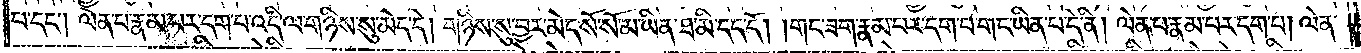པ་དང༌། ལེན་པ་རྣམ་པར་དག་པ་འདི་ལ་གཉིས་སུ་མེད་དེ། གཉིས་སུ་བྱར་མེད་སོ་སོ་མ་ཡིན་ཐ་མི་དད་དོ། །གང་ཟག་རྣམ་པར་དག་པ་གང་ཡིན་པ་དེ་ནི། ལེན་པ་རྣམ་པར་དག་པ། ལེན་
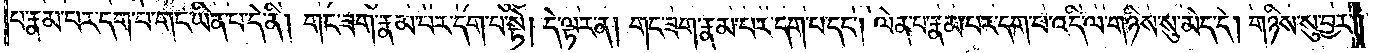པ་རྣམ་པར་དག་པ་གང་ཡིན་པ་དེ་ནི། གང་ཟག་རྣམ་པར་དག་པ་སྟེ། དེ་ལྟར་ན། གང་ཟག་རྣམ་པར་དག་པ་དང༌། ལེན་པ་རྣམ་པར་དག་པ་འདི་ལ་གཉིས་སུ་མེད་དེ། གཉིས་སུ་བྱར་
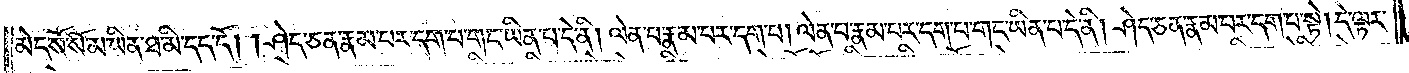མེད་སོ་སོ་མ་ཡིན་ཐ་མི་དད་དོ། ཤེད་ཅན་རྣམ་པར་དག་པ་གང་ཡིན་པ་དེ་ནི། ལེན་པ་རྣམ་པར་དག་པ། ལེན་པ་རྣམ་པར་དག་པ་གང་ཡིན་པ་དེ་ནི། ཤེད་ཅན་རྣམ་པར་དག་པ་སྟེ། དེ་ལྟར་
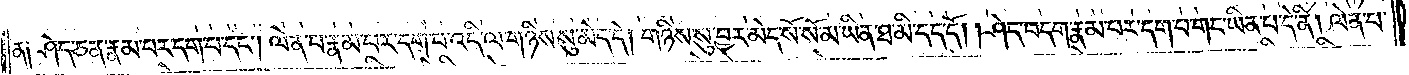ན། ཤེད་ཅན་རྣམ་པར་དག་པ་དང༌། ལེན་པ་རྣམ་པར་དག་པ་འདི་ལ་གཉིས་སུ་མེད་དེ། གཉིས་སུ་བྱར་མེད་སོ་སོ་མ་ཡིན་ཐ་མི་དད་དོ། །ཤེད་བདག་རྣམ་པར་དག་པ་གང་ཡིན་པ་དེ་ནི། ལེན་པ་
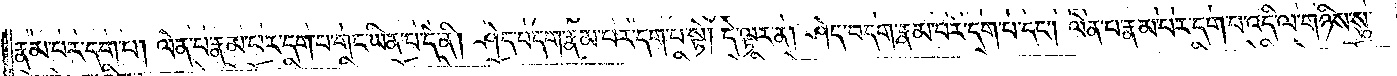རྣམ་པར་དག་པ། ལེན་པ་རྣམ་པར་དག་པ་གང་ཡིན་པ་དེ་ནི། ཤེད་བདག་རྣམ་པར་དག་པ་སྟེ། དེ་ལྟར་ན། ཤེད་བདག་རྣམ་པར་དག་པ་དང༌། ལེན་པ་རྣམ་པར་དག་པ་འདི་ལ་གཉིས་སུ་
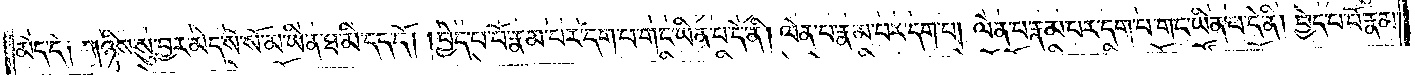མེད་དེ། གཉིས་སུ་བྱར་མེད་སོ་སོ་མ་ཡིན་ཐ་མི་དད་དོ། །བྱེད་པ་པོ་རྣམ་པར་དག་པ་གང་ཡིན་པ་དེ་ནི། ལེན་པ་རྣམ་པར་དག་པ། ལེན་པ་རྣམ་པར་དག་པ་གང་ཡིན་པ་དེ་ནི། བྱེད་པ་པོ་རྣམ་
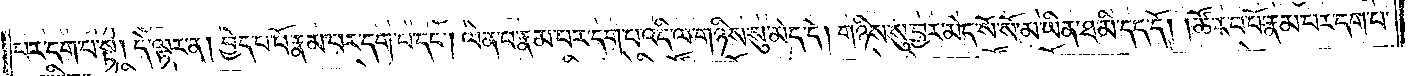པར་དག་པ་སྟེ། དེ་ལྟར་ན། བྱེད་པ་པོ་རྣམ་པར་དག་པ་དང༌། ལེན་པ་རྣམ་པར་དག་པ་འདི་ལ་གཉིས་སུ་མེད་དེ། གཉིས་སུ་བྱར་མེད་སོ་སོ་མ་ཡིན་ཐ་མི་དད་དོ། ཚོར་བ་པོ་རྣམ་པར་དག་པ་
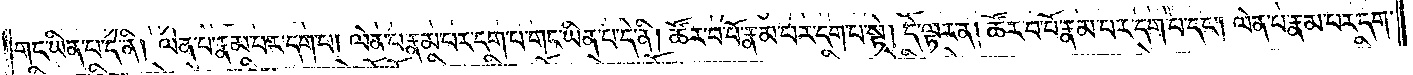གང་ཡིན་པ་དེ་ནི། ལེན་པ་རྣམ་པར་དག་པ། ལེན་པ་རྣམ་པར་དག་པ་གང་ཡིན་པ་དེ་ནི། ཚོར་བ་པོ་རྣམ་པར་དག་པ་སྟེ། དེ་ལྟར་ན། ཚོར་བ་པོ་རྣམ་པར་དག་པ་དང༌། ལེན་པ་རྣམ་པར་དག་
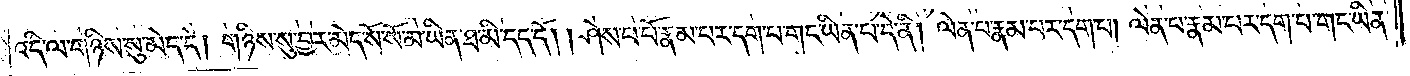འདི་ལ་གཉིས་སུ་མེད་དེ། གཉིས་སུ་བྱར་མེད་སོ་སོ་མ་ཡིན་ཐ་མི་དད་དོ། །ཤེས་པ་པོ་རྣམ་པར་དག་པ་གང་ཡིན་པ་དེ་ནི། ལེན་པ་རྣམ་པར་དག་པ། ལེན་པ་རྣམ་པར་དག་པ་གང་ཡིན་
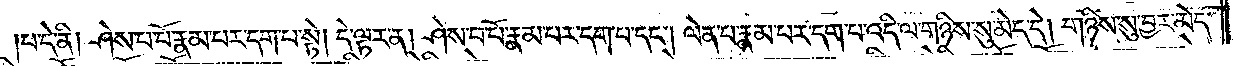པ་དེ་ནི། ཤེས་པ་པོ་རྣམ་པར་དག་པ་སྟེ། དེ་ལྟར་ན། ཤེས་པ་པོ་རྣམ་པར་དག་པ་དང༌། ལེན་པ་རྣམ་པར་དག་པ་འདི་ལ་གཉིས་སུ་མེད་དེ། གཉིས་སུ་བྱར་མེད་
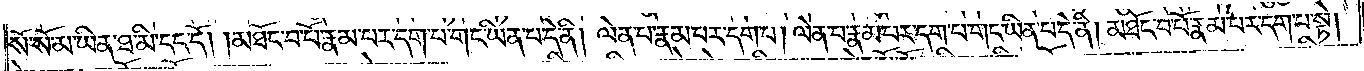སོ་སོ་མ་ཡིན་ཐ་མི་དད་དོ། །མཐོང་བ་པོ་རྣམ་པར་དག་པ་གང་ཡིན་པ་དེ་ནི། ལེན་པ་རྣམ་པར་དག་པ། ལེན་པ་རྣམ་པར་དག་པ་གང་ཡིན་པ་དེ་ནི། མཐོང་བ་པོ་རྣམ་པར་དག་པ་སྟེ།
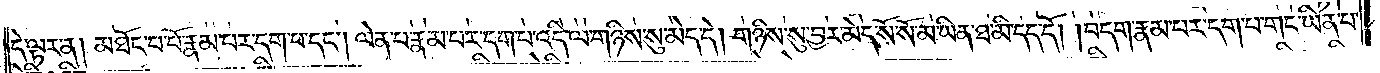དེ་ལྟར་ན། མཐོང་བ་པོ་རྣམ་པར་དག་པ་དང༌། ལེན་པ་རྣམ་པར་དག་པ་འདི་ལ་གཉིས་སུ་མེད་དེ། གཉིས་སུ་བྱར་མེད་སོ་སོ་མ་ཡིན་ཐ་མི་དད་དོ། །བདག་རྣམ་པར་དག་པ་གང་ཡིན་པ་
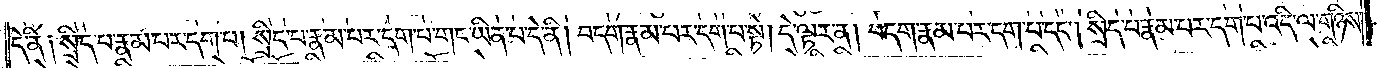དེ་ནི། སྲིད་པ་རྣམ་པར་དག་པ། སྲིད་པ་རྣམ་པར་དག་པ་གང་ཡིན་པ་དེ་ནི། བདག་རྣམ་པར་དག་པ་སྟེ། དེ་ལྟར་ན། བདག་རྣམ་པར་དག་པ་དང༌། སྲིད་པ་རྣམ་པར་དག་པ་འདི་ལ་གཉིས་
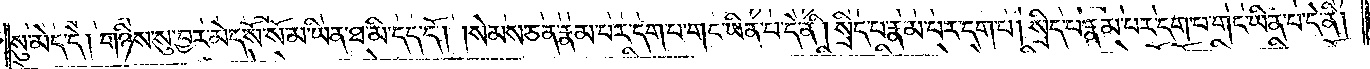སུ་མེད་དེ། གཉིས་སུ་བྱར་མེད་སོ་སོ་མ་ཡིན་ཐ་མི་དད་དོ། །སེམས་ཅན་རྣམ་པར་དག་པ་གང་ཡིན་པ་དེ་ནི། སྲིད་པ་རྣམ་པར་དག་པ། སྲིད་པ་རྣམ་པར་དག་པ་གང་ཡིན་པ་དེ་ནི།
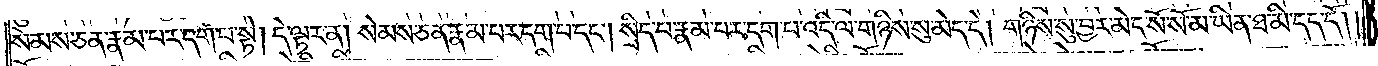སེམས་ཅན་རྣམ་པར་དག་པ་སྟེ། དེ་ལྟར་ན། སེམས་ཅན་རྣམ་པར་དག་པ་དང༌། སྲིད་པ་རྣམ་པར་དག་པ་འདི་ལ་གཉིས་སུ་མེད་དེ། གཉིས་སུ་བྱར་མེད་སོ་སོ་མ་ཡིན་ཐ་མི་དད་དོ། །
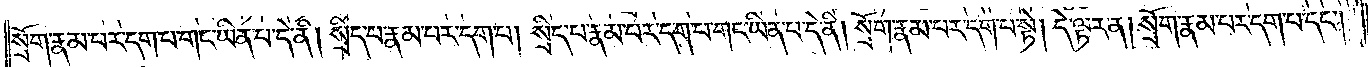སྲོག་རྣམ་པར་དག་པ་གང་ཡིན་པ་དེ་ནི། སྲིད་པ་རྣམ་པར་དག་པ། སྲིད་རྣམ་པར་དག་པ་ཡིན་པ་དེ་ནི། སྲོག་རྣམ་པར་དག་པ་སྟེ། དེ་ལྟར་ན། སྲོག་རྣམ་པར་དག་པ་དང༌།
